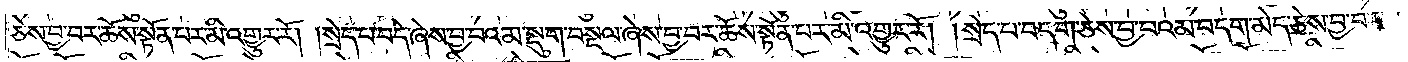ཅེས་བྱ་བར་ཆོས་སྟོན་པར་མི་འགྱུར་རོ། །སྲེད་པ་བདེ་ཞེས་བྱ་བའམ་སྡུག་བསྔལ་ཞེས་བྱ་བར་ཆོས་སྟོན་པར་མི་འགྱུར་རོ། །སྲེད་པ་བདག་ཅེས་བྱ་བའམ་བདག་མེད་ཅེས་བྱ་བར་
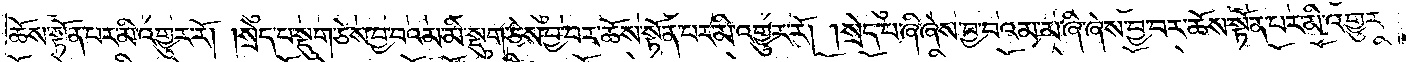ཆོས་སྟོན་པར་མི་འགྱུར་རོ། །སྲེད་པ་སྡུག་ཅེས་བྱ་བའམ་མི་སྡུག་ཅེས་བྱ་བར་ཆོས་སྟོན་པར་མི་འགྱུར་རོ། །སྲེད་པ་ཞི་ཞེས་བྱ་བའམ་མ་ཞི་ཞེས་བྱ་བར་ཆོས་སྟོན་པར་མི་འགྱུར་
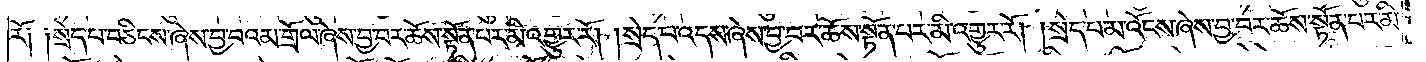རོ༑ ༑སྲེད་པ་བཅིངས་ཞེས་བྱ་བའམ་གྲོལ་ཞེས་བྱ་བར་ཆོས་སྟོན་པར་མི་འགྱུར་རོ། །སྲེད་པ་འདས་ཞེས་བྱ་བར་ཆོས་སྟོན་པར་མི་འགྱུར་རོ། །སྲེད་པ་མ་འོངས་ཞེས་བྱ་བར་ཆོས་སྟོན་པར་མི་
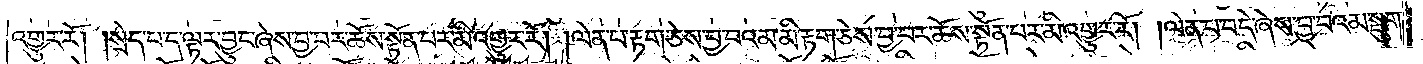འགྱུར་རོ། །སྲེད་པ་ད་ལྟར་བྱུང་ཞེས་བྱ་བར་ཆོས་སྟོན་པར་མི་འགྱུར་རོ། །ལེན་པ་རྟག་ཅེས་བྱ་བའམ་མི་རྟག་ཅེས་བྱ་བར་ཆོས་སྟོན་པར་མི་འགྱུར་རོ། །ལེན་པ་བདེ་ཞེས་བྱ་བའམ་སྡུག་
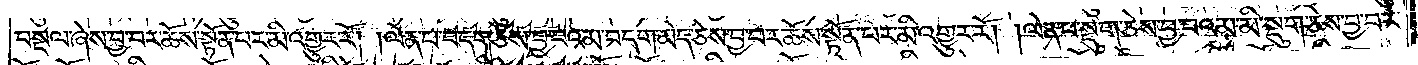བསྔལ་ཞེས་བྱ་བར་ཆོས་སྟོན་པར་མི་འགྱུར་རོ། །ལེན་པ་བདག་ཅེས་བྱ་བའམ་བདག་མེད་ཅེས་བྱ་བར་ཆོས་སྟོན་པར་མི་འགྱུར་རོ། །ལེན་པ་སྡུག་ཅེས་བྱ་བའམ་མི་སྡུག་ཅེས་བྱ་བར་
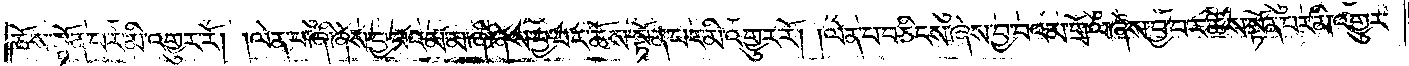ཆོས་སྟོན་པར་མི་འགྱུར་རོ། །ལེན་པ་ཞི་ཞེས་བྱ་བའམ་མ་ཞི་ཞེས་བྱ་བར་ཆོས་སྟོན་པར་མི་འགྱུར་རོ། །ལེན་པ་བཅིངས་ཞེས་བྱ་བའམ་གྲོལ་ཞེས་བྱ་བར་ཆོས་སྟོན་པར་མི་འགྱུར་
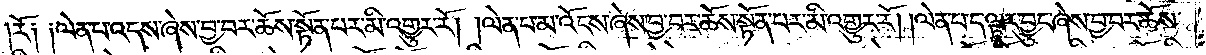རོ༑ ༑ལེན་པ་འདས་ཞེས་བྱ་བར་ཆོས་སྟོན་པར་མི་འགྱུར་རོ། །ལེན་པ་མ་འོངས་ཞེས་བྱ་བར་ཆོས་སྟོན་པར་མི་འགྱུར་རོ། །ལེན་པ་ད་ལྟར་བྱུང་ཞེས་བྱ་བར་ཆོས་
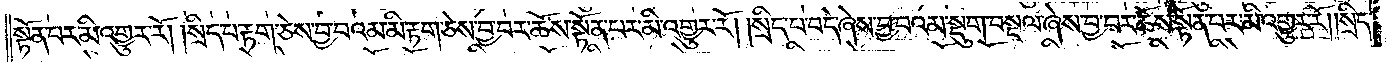སྟོན་པར་མི་འགྱུར་རོ། །སྲིད་པ་རྟག་ཅེས་བྱ་བའམ་མི་རྟག་ཅེས་བྱ་བར་ཆོས་སྟོན་པར་མི་འགྱུར་རོ། །སྲིད་པ་བདེ་ཞེས་བྱ་བའམ་སྡུག་བསྔལ་ཞེས་བྱ་བར་ཆོས་སྟོན་པར་མི་འགྱུར་རོ། །སྲིད་
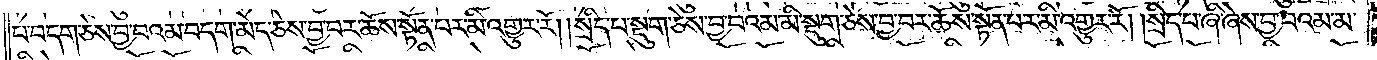པ་བདག་ཅེས་བྱ་བའམ་བདག་མེད་ཅེས་བྱ་བར་ཆོས་སྟོན་པར་མི་འགྱུར་རོ། །སྲིད་པ་སྡུག་ཅེས་བྱ་བའམ་མི་སྡུག་ཅེས་བྱ་བར་ཆོས་སྟོན་པར་མི་འགྱུར་རོ། །སྲིད་པ་ཞི་ཞེས་བྱ་བའམ་མ་
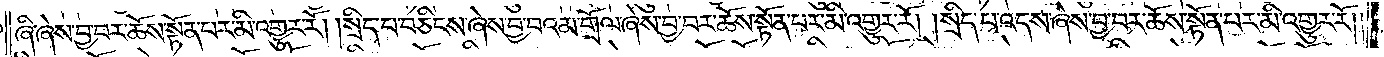ཞི་ཞེས་བྱ་བར་ཆོས་སྟོན་པར་མི་འགྱུར་རོ། །སྲིད་པ་བཅིངས་ཞེས་བྱ་བའམ་གྲོལ་ཞེས་བྱ་བར་ཆོས་སྟོན་པར་མི་འགྱུར་རོ། །སྲིད་པ་འདས་ཞེས་བྱ་བར་ཆོས་སྟོན་པར་མི་འགྱུར་རོ། །
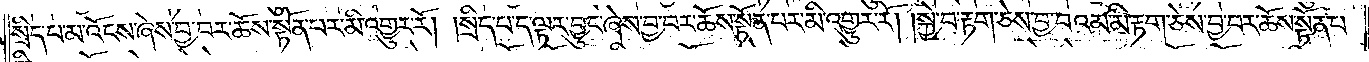སྲིད་པ་མ་འོངས་ཞེས་བྱ་བར་ཆོས་སྟོན་པར་མི་འགྱུར་རོ། །སྲིད་པ་ད་ལྟར་བྱུང་ཞེས་བྱ་བར་ཆོས་སྟོན་པར་མི་འགྱུར་རོ། །སྐྱེ་བ་རྟག་ཅེས་བྱ་བའམ་མི་རྟག་ཅེས་བྱ་བར་ཆོས་སྟོན་པ་
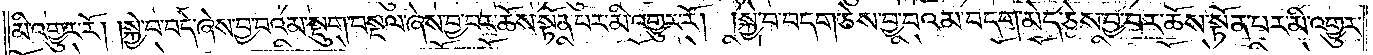མི་འགྱུར་རོ། །སྐྱེ་བ་བདེ་ཞེས་བྱ་བའམ་སྡུག་བསྔལ་ཞེས་བྱ་བར་ཆོས་སྟོན་པར་མི་འགྱུར་རོ། །སྐྱེ་བ་བདག་ཅེས་བྱ་བའམ་བདག་མེད་ཅེས་བྱ་བར་ཆོས་སྟོན་པར་མི་འགྱུར་
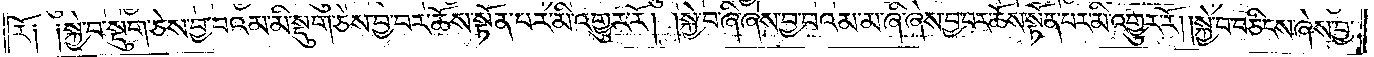རོ༑ ༑སྐྱེ་བ་སྡུག་ཅེས་བྱ་བའམ་མི་སྡུག་ཅེས་བྱ་བར་ཆོས་སྟོན་པར་མི་འགྱུར་རོ། །སྐྱེ་བ་ཞི་ཞེས་བྱ་བའམ་མ་ཞི་ཞེས་བྱ་བར་ཆོས་སྟོན་པར་མི་འགྱུར་རོ། །སྐྱེ་བ་བཅིངས་ཞེས་བྱ་
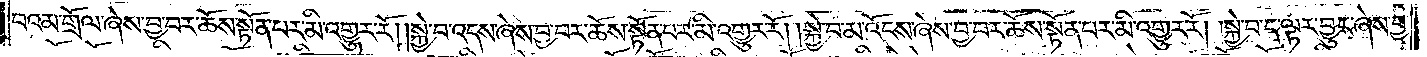བའམ་གྲོལ་ཞེས་བྱ་བར་ཆོས་སྟོན་པར་མི་འགྱུར་རོ། །སྐྱེ་བ་འདས་ཞེས་བྱ་བར་ཆོས་སྟོན་པར་མི་འགྱུར་རོ། །སྐྱེ་བ་མ་འོངས་ཞེས་བྱ་བར་ཆོས་སྟོན་པར་མི་འགྱུར་རོ། །སྐྱེ་བ་ད་ལྟར་བྱུང་ཞེས་བྱ་
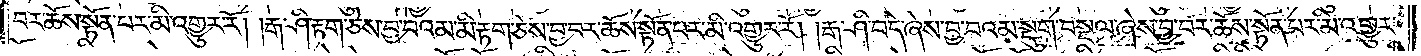བར་ཆོས་སྟོན་པར་མི་འགྱུར་རོ། །རྒ་ཤི་རྟག་ཅེས་བྱ་བའམ་མི་རྟག་ཅེས་བྱ་བར་ཆོས་སྟོན་པར་མི་འགྱུར་རོ། །རྒ་ཤི་བདེ་ཞེས་བྱ་བའམ་སྡུག་བསྔལ་ཞེས་བྱ་བར་ཆོས་སྟོན་པར་མི་འགྱུར་
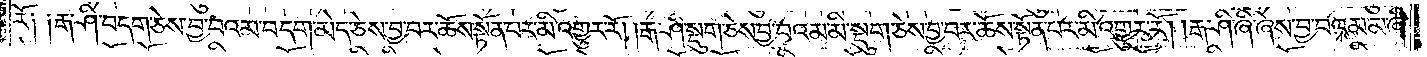རོ༑ ༑རྒ་ཤི་བདག་ཅེས་བྱ་བའམ་བདག་མེད་ཅེས་བྱ་བར་ཆོས་སྟོན་པར་མི་འགྱུར་རོ། །རྒ་ཤི་སྡུག་ཅེས་བྱ་བའམ་མི་སྡུག་ཅེས་བྱ་བར་ཆོས་སྟོན་པར་མི་འགྱུར་རོ། །རྒ་ཤི་ཞི་ཞེས་བྱ་བའམ་མ་ཞི་
